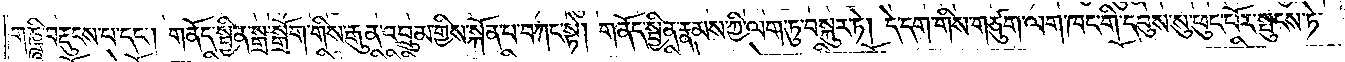གཎྜཱི་བརྡུངས་པ་དང༌། གནོད་སྦྱིན་སྒྲ་སྒྲོག་གིས་རྒུན་འབྲུམ་གྱིས་སྐོན་པ་བཀང་སྟེ། གནོད་སྦྱིན་རྣམས་ཀྱི་ལག་ཏུ་བསྐུར་ཏེ། དེ་དག་གིས་གཙུག་ལག་ཁང་གི་དབུས་སུ་ཕུང་པོར་སྤུངས་ཏེ་
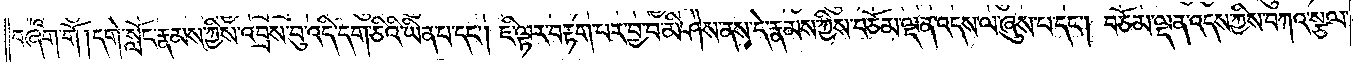བཞག་གོ །དགེ་སློང་རྣམས་ཀྱིས་འབྲས་བུ་འདི་དག་ཅིའི་ཡིན་པ་དང༌། ཇི་ལྟར་བརྟག་པར་བྱ་བ་མི་ཤེས་ནས་དེ་རྣམས་ཀྱིས་བཅོམ་ལྡན་འདས་ལ་ཞུས་པ་དང༌། བཅོམ་ལྡན་འདས་ཀྱིས་བཀའ་སྩལ་
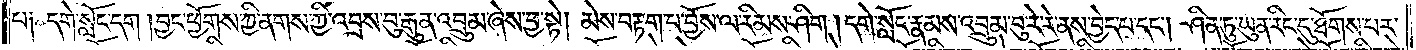པ། དགེ་སློང་དག །བྱང་ཕྱོགས་ཀྱི་ནགས་ཀྱི་འབྲས་བུ་རྒུན་འབྲུམ་ཞེས་བྱ་སྟེ། མེས་བརྟག་པ་བྱོས་ལ་རིམས་ཤིག །དགེ་སློང་རྣམས་འབྲུམ་བུ་རེ་རེ་ནས་བྱེད་པ་དང༌། ཤིན་ཏུ་ཡུན་རིང་དུ་ཐོགས་པར་
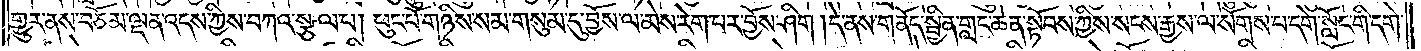གྱུར་ནས་བཅོམ་ལྡན་འདས་ཀྱིས་བཀའ་སྩལ་པ། ཕུང་པོ་གཉིས་སམ་གསུམ་དུ་བྱོས་ལ་མེས་རེག་པར་བྱོས་ཤིག །དེ་ནས་གནོད་སྦྱིན་གླང་ཆེན་སྟོབས་ཀྱིས་སངས་རྒྱས་ལ་སོགས་པ་དགེ་སློང་གི་དགེ་
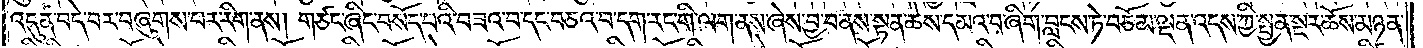འདུན་བདེ་བར་བཞུགས་པར་རིག་ནས། གཙང་ཞིང་བསོད་པའི་བཟའ་བ་དང་བཅའ་བ་དག་རང་གི་ལག་ནས་ཞེས་བྱ་བ་ནས་སྟན་ཆེས་དམའ་བ་ཞིག་བླངས་ཏེ་བཅོམ་ལྡན་འདས་ཀྱི་སྤྱན་སྔར་ཆོས་མཉན་
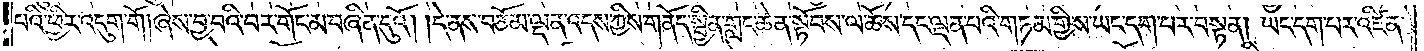པའི་ཕྱིར་འདུག་གོ །ཞེས་བྱ་བའི་བར་གོང་མ་བཞིན་དུའོ། །དེ་ནས་བཅོམ་ལྡན་འདས་ཀྱིས་གནོད་སྦྱིན་གླང་ཆེན་སྟོབས་ལ་ཆོས་དང་ལྡན་པའི་གཏམ་གྱིས་ཡང་དག་པར་བསྟན། ཡང་དག་པར་འཛིན་
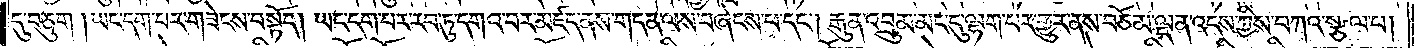དུ་བཅུག །ཡང་དག་པར་གཟེངས་བསྟོད། ཡང་དག་པར་རབ་ཏུ་དགའ་བར་མཛད་ནས་གདན་ལས་བཞེངས་པ་དང༌། རྒུན་འབྲུམ་མང་དུ་ལྷག་པར་གྱུར་ནས་བཅོམ་ལྡན་འདས་ཀྱིས་བཀའ་སྩལ་པ།
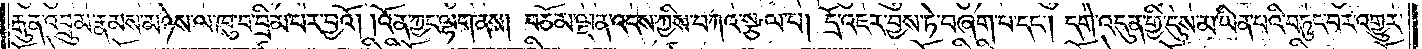རྒུན་འབྲུམ་རྣམས་མཉེས་ལ་ཁུ་བ་བྲིམ་པར་བྱའོ། །འོན་ཀྱང་ལྷག་ནས། བཅོམ་ལྡན་འདས་ཀྱིས་བཀའ་སྩལ་པ། དྲོ་འཇར་བྱས་ཏེ་བཞག་པ་དང༌། དགེ་འདུན་གྱི་དུས་མ་ཡིན་པའི་བཏུང་བར་འགྱུར་
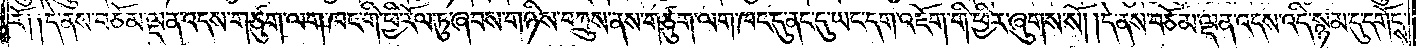རོ། །དེ་ནས་བཅོམ་ལྡན་འདས་གཙུག་ལག་ཁང་གི་ཕྱི་རོལ་ཏུ་ཞབས་གཉིས་བཀྲུས་ནས་གཙུག་ལག་ཁང་དུ་ནང་དུ་ཡང་དག་འཇོག་གི་ཕྱིར་ཞུགས་སོ། །དེ་ནས་བཅོམ་ལྡན་འདས་འདི་སྙམ་དུ་དགོངས་
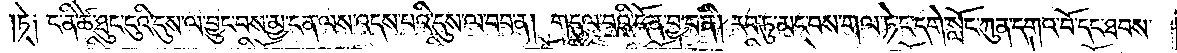ཏེ། ང་ནི་ཚེ་ཐུང་ངུའི་དུས་ལ་བྱུང་བས་མྱ་ངན་ལས་འདས་པའི་དུས་ལ་བབ་ན། གདུལ་བའི་དོན་བྱ་བ་ནི། རབ་ཏུ་མང་བས་གལ་ཏེ་ང་དགེ་སློང་ཀུན་དགའ་བོ་དང་ཐབས་
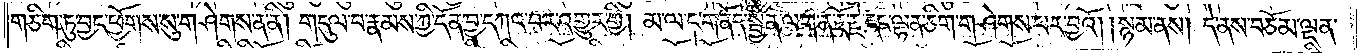གཅིག་ཏུ་བྱང་ཕྱོགས་སུ་གཤེགས་ན་ནི། གདུལ་བ་རྣམས་ཀྱི་དོན་བྱ་དཀའ་བར་འགྱུར་གྱི། མ་ལ་ང་གནོད་སྦྱིན་ལག་ན་རྡོ་རྗེ་དང་ལྷན་ཅིག་གཤེགས་པར་བྱའོ། །སྙམ་ནས། དེ་ནས་བཅོམ་ལྡན་
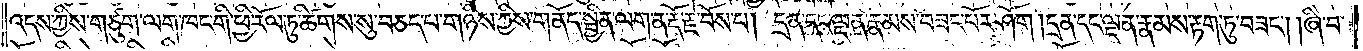འདས་ཀྱིས་གཙུག་ལག་ཁང་གི་ཕྱི་རོལ་ཏུ་ཚིགས་སུ་བཅད་པ་གཉིས་ཀྱིས་གནོད་སྦྱིན་ལག་ན་རྡོ་རྗེ་བོས་པ། དྲན་དང་ལྡན་རྣམས་བཟང་པོར་ཤོག །དྲན་དང་ལྡན་རྣམས་རྟག་ཏུ་བཟང༌། ཞི་བ་
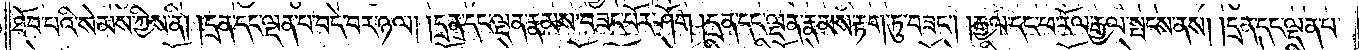ཐོབ་པའི་སེམས་ཀྱིས་ནི། །དྲན་དང་ལྡན་པ་བདེ་བར་ཉལ། །དྲན་དང་ལྡན་རྣམས་བཟང་པོར་ཤོག །དྲན་དང་ལྡན་རྣམས་རྟག་ཏུ་བཟང༌། །རྒྱལ་དང་ཕ་རོལ་རྒྱལ་སྤངས་ནས། །དྲན་དང་ལྡན་པ་
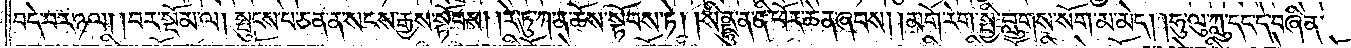བདེ་བར་ཉལ། །བར་སྡོམ་ལ། སྤུངས་པ་ཅན་ན་སངས་རྒྱས་སྟོབས། །རེ་ཏུ་ཀ་ན་ཆོས་སྟོབས་ཏེ། །སིནྡྷུ་ན་ནི་ཕོར་ཆེན་ཞབས། །མགོ་རེག་སྤྱི་བླུགས་སོག་མ་མེད། །ཧུ་ལུ་ཀླུ་དང་དེ་བཞིན་
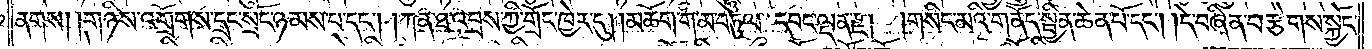ནགས། །གཉིས་འགྲོགས་དྲང་སྲོང་ཉམས་པ་དང༌། །ཀན་ཐ་འབྲས་ཀྱི་གྲོང་ཁྱེར་དུ། །མཆོག་གི་མ་བཏུལ་དབང་ལྡན་རྫ། གསིང་མའི་གནོད་སྦྱིན་ཆེན་པོ་དང༌། དེ་བཞིན་བརྩེགས་སྐྱོང་
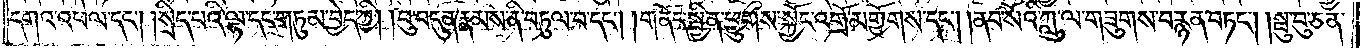དགའ་འཕེལ་དང༌། སྲིད་པའི་ལྷ་དང་གཏུམ་བྱེད་ཀྱི། །བུ་བདུན་རྣམས་ནི་བཏུལ་བ་དང༌། །གནོད་སྦྱིན་ཕྱུགས་སྐྱོང་འགྲོ་མགྱོགས་དང༌། །ནབ་སོའི་ཀླུ་ལ་གཟུགས་བརྙན་བཏང༌། སྦུ་བུ་ཅན་
